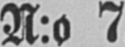N:o 7
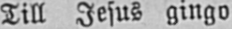Till Jesus gingo
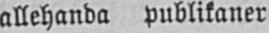allehanda publikaner
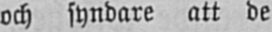och syndare att de
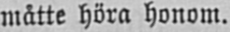måtte höra honom.
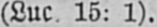(Luc 15: 1).
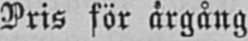Pris för årgång
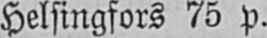Helsingfors 75 p.
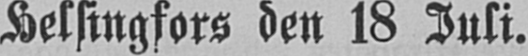Helsingfors den 18 Juli.
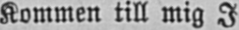Kommen till mig I
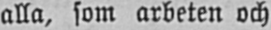alla, som arbeten och
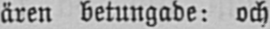ären betungade: och
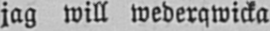jag will wederqwicka
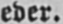eder.
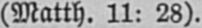(Matth. 11: 28).
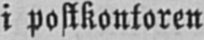i postkontoren
